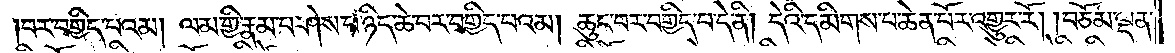བར་བགྱིད་པའམ། ལམ་གྱི་རྣམ་པ་ཤེས་པ་ཉིད་ཆེ་བར་བགྱིད་པའམ། ཆུང་བར་བགྱིད་པ་དེ་ནི། དེའི་དམིགས་པ་ཆེན་པོར་འགྱུར་རོ། །བཅོམ་ལྡན་
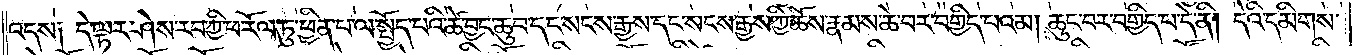འདས༑ དེ་ལྟར་ཤེས་རབ་ཀྱི་ཕ་རོལ་ཏུ་ཕྱིན་པ་ལ་སྤྱོད་པའི་ཚེ་བྱང་ཆུབ་དང་སངས་རྒྱས་དང་སངས་རྒྱས་ཀྱི་ཆོས་རྣམས་ཆེ་བར་བགྱིད་པའམ། ཆུང་བར་བགྱིད་པ་དེ་ནི། དེའི་དམིགས་
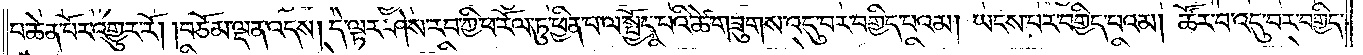པ་ཆེན་པོར་འགྱུར་རོ། །བཅོམ་ལྡན་འདས། དེ་ལྟར་ཤེས་རབ་ཀྱི་ཕ་རོལ་ཏུ་ཕྱིན་པ་ལ་སྤྱོད་པའི་ཚེ་གཟུགས་འདུ་བར་བགྱིད་པའམ། ཡངས་པར་བགྱིད་པའམ། ཚོར་བ་འདུ་བར་བགྱིད་
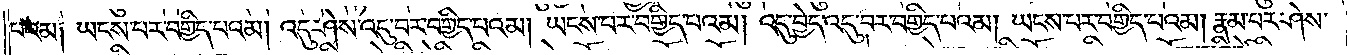པའམ༑ ཡངས་པར་བགྱིད་པའམ། འདུ་ཤེས་འདུ་བར་བགྱིད་པའམ། ཡངས་པར་བགྱིད་པའམ། འདུ་བྱེད་འདུ་བར་བགྱིད་པའམ། ཡངས་པར་བགྱིད་པའམ། རྣམ་པར་ཤེས་
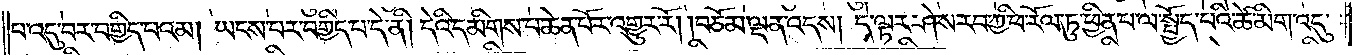པ་འདུ་བར་བགྱིད་པའམ། ཡངས་པར་བགྱིད་པ་དེ་ནི། དེའི་དམིགས་པ་ཆེན་པོར་འགྱུར་རོ། །བཅོམ་ལྡན་འདས། དེ་ལྟར་ཤེས་རབ་ཀྱི་ཕ་རོལ་ཏུ་ཕྱིན་པ་ལ་སྤྱོད་པའི་ཚེ་མིག་འདུ་
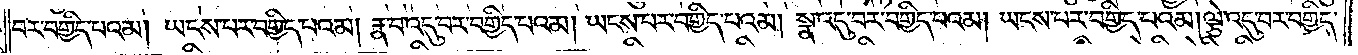བར་བགྱིད་པའམ། ཡངས་པར་བགྱིད་པའམ། རྣ་བ་འདུ་བར་བགྱིད་པའམ། ཡངས་པར་བགྱིད་པའམ། སྣ་འདུ་བར་བགྱིད་པའམ། ཡངས་པར་བགྱིད་པའམ། ལྕེ་འདུ་བར་བགྱིད་
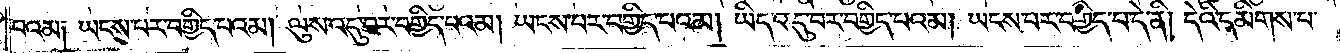པའམ༑ ཡངས་པར་བགྱིད་པའམ། ལུས་འདུ་བར་བགྱིད་པའམ། ཡངས་པར་བགྱིད་པའམ། ཡིད་འདུ་བར་བགྱིད་པའམ། ཡངས་པར་བགྱིད་པ་དེ་ནི། དེའི་དམིགས་པ་
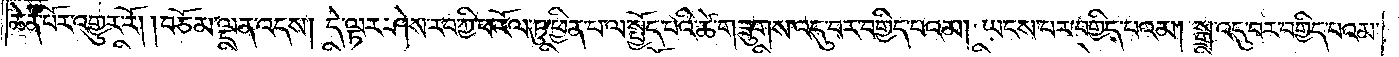ཆེན་པོར་འགྱུར་རོ། །བཅོམ་ལྡན་འདས། དེ་ལྟར་ཤེས་རབ་ཀྱི་ཕ་རོལ་ཏུ་ཕྱིན་པ་ལ་སྤྱོད་པའི་ཚེ་གཟུགས་འདུ་བར་བགྱིད་པའམ། ཡངས་པར་བགྱིད་པའམ། སྒྲ་འདུ་བར་བགྱིད་པའམ།
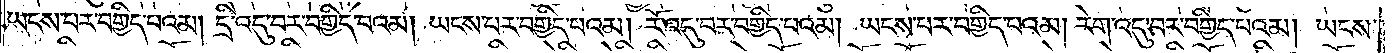ཡངས་པར་བགྱིད་པའམ། དྲི་འདུ་བར་བགྱིད་པའམ། ཡངས་པར་བགྱིད་པའམ། རོ་འདུ་བར་བགྱིད་པའམ། ཡངས་པར་བགྱིད་པའམ། རེག་འདུ་བར་བགྱིད་པའམ། ཡངས་
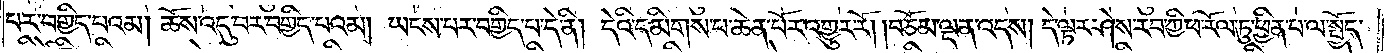པར་བགྱིད་པའམ། ཆོས་འདུ་བར་བགྱིད་པའམ། ཡངས་པར་བགྱིད་པ་དེ་ནི། དེའི་དམིགས་པ་ཆེན་པོར་འགྱུར་རོ། །བཅོམ་ལྡན་འདས། དེ་ལྟར་ཤེས་རབ་ཀྱི་ཕ་རོལ་ཏུ་ཕྱིན་པ་ལ་སྤྱོད་
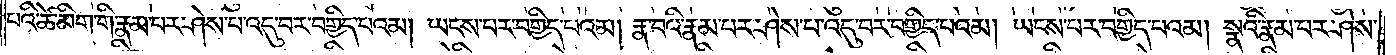པའི་ཚེ་མིག་གི་རྣམ་པར་ཤེས་པ་འདུ་བར་བགྱིད་པའམ། ཡངས་པར་བགྱིད་པའམ། རྣ་བའི་རྣམ་པར་ཤེས་པ་འདུ་བར་བགྱིད་པའམ། ཡངས་པར་བགྱིད་པའམ། སྣའི་རྣམ་པར་ཤེས་
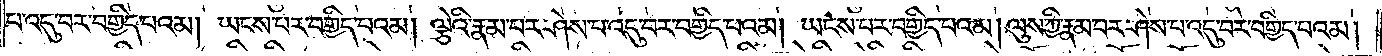པ་འདུ་བར་བགྱིད་པའམ། ཡངས་པར་བགྱིད་པའམ། ལྕེའི་རྣམ་པར་ཤེས་པ་འདུ་བར་བགྱིད་པའམ། ཡངས་པར་བགྱིད་པའམ། ལུས་ཀྱི་རྣམ་པར་ཤེས་པ་འདུ་བར་བགྱིད་པའམ།
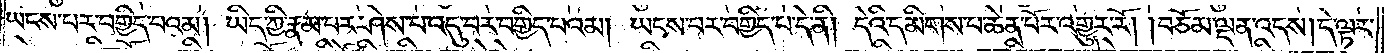ཡངས་པར་བགྱིད་པའམ། ཡིད་ཀྱི་རྣམ་པར་ཤེས་པ་འདུ་བར་བགྱིད་པའམ། ཡངས་པར་བགྱིད་པ་དེ་ནི། དེའི་དམིགས་པ་ཆེན་པོར་འགྱུར་རོ། །བཅོམ་ལྡན་འདས། དེ་ལྟར་
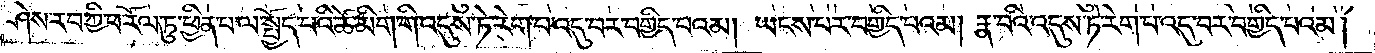ཤེས་རབ་ཀྱི་ཕ་རོལ་ཏུ་ཕྱིན་པ་ལ་སྤྱོད་པའི་ཚེ་མིག་གི་འདུས་ཏེ་རེག་པ་འདུ་བར་བགྱིད་པའམ། ཡངས་པར་བགྱིད་པའམ། རྣ་བའི་འདུས་ཏེ་རེག་པ་འདུ་བར་བགྱིད་པའམ།
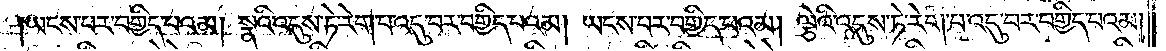ཡངས་པར་བགྱིད་པའམ། སྣའི་འདུས་ཏེ་རེག་པ་འདུ་བར་བགྱིད་པའམ། ཡངས་པར་བགྱིད་པའམ། ལྕེའི་འདུས་ཏེ་རེག་པ་འདུ་བར་བགྱིད་པའམ།
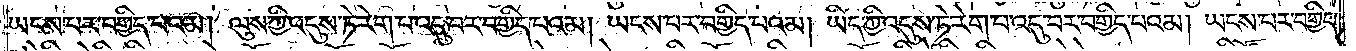ཡངས་པར་བགྱིད་པའམ། ལུས་ཀྱི་འདུས་ཏེ་རེག་པ་འདུ་བར་བགྱིད་པའམ། ཡངས་པར་བགྱིད་པའམ། ཡིད་ཀྱི་འདུས་ཏེ་རེག་པ་འདུ་བར་བགྱིད་པའམ། ཡངས་པར་བགྱིད་
